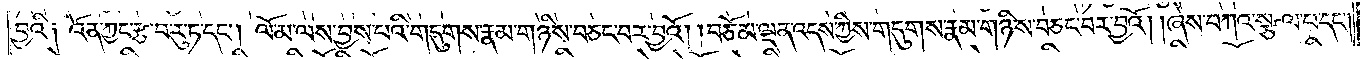བྱའི༑ འོན་ཀྱང་རྩ་བ་རུ་ཏ་དང༌། ལོ་མ་ལས་བྱས་པའི་གདུགས་རྣམ་གཉིས་བཅང་བར་བྱའོ། །བཅོམ་ལྡན་འདས་ཀྱིས་གདུགས་རྣམ་གཉིས་བཅང་བར་བྱའོ། །ཞེས་བཀའ་སྩལ་པ་དང༌།
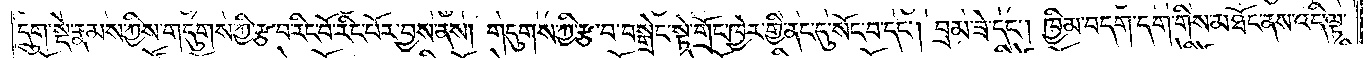དྲུག་སྡེ་རྣམས་ཀྱིས་གདུགས་ཀྱི་རྩ་བ་རིང་པོ་རིང་པོར་བྱས་ནས། གདུགས་ཀྱི་རྩ་བ་བསྒྲེང་སྟེ་གྲོང་ཁྱེར་གྱི་ནང་དུ་སོང་བ་དང༌། བྲམ་ཟེ་དང༌། ཁྱིམ་བདག་དག་གིས་མཐོང་ནས་འདི་ལྟ་
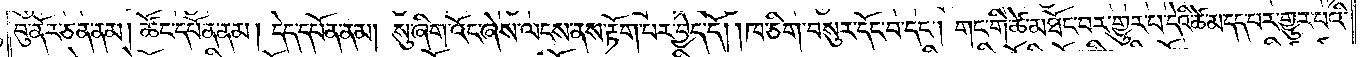བུ་ནོར་ཅན་ནམ། ཚོང་དཔོན་ནམ། དེད་དཔོན་ནམ། སུ་ཞིག་འོང་ཞེས་ལངས་ནས་རྟོག་པར་བྱེད་དོ། །ཁ་ཅིག་བསུར་དོང་བ་དང༌། གང་གི་ཚེ་མཐོང་བར་གྱུར་པ་དེའི་ཚེ་མ་དད་པར་གྱུར་པའི་
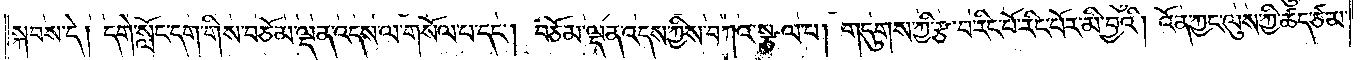སྐབས་དེ། དགེ་སློང་དག་གིས་བཅོམ་ལྡན་འདས་ལ་གསོལ་པ་དང༌། བཅོམ་ལྡན་འདས་ཀྱིས་བཀའ་སྩལ་པ། གདུགས་ཀྱི་རྩ་བ་རིང་པོ་རིང་པོར་མི་བྱའི། འོན་ཀྱང་ལུས་ཀྱི་ཚད་ཙམ་
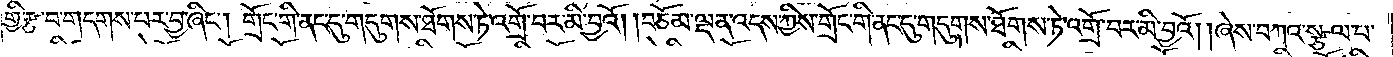གྱི་རྩ་བ་གདགས་པར་བྱ་ཞིང༌། གྲོང་གི་ནང་དུ་གདུགས་ཐོགས་ཏེ་འགྲོ་བར་མི་བྱའོ། །བཅོམ་ལྡན་འདས་ཀྱིས་གྲོང་གི་ནང་དུ་གདུགས་ཐོགས་ཏེ་འགྲོ་བར་མི་བྱའོ། །ཞེས་བཀའ་སྩལ་པ་
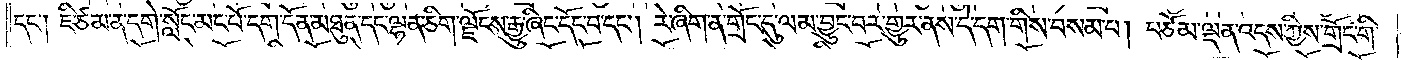དང༌། ཇི་ཙམ་ན་དགེ་སློང་མང་པོ་དག་དོན་མཐུན་དང་ལྷན་ཅིག་ལྗོངས་རྒྱུ་ཞིང་དོང་བ་དང༌། རེ་ཞིག་ན་གྲོང་དུ་ལམ་བྱུང་བར་གྱུར་ནས་དེ་དག་གིས་བསམ་པ། བཅོམ་ལྡན་འདས་ཀྱིས་གྲོང་གི་
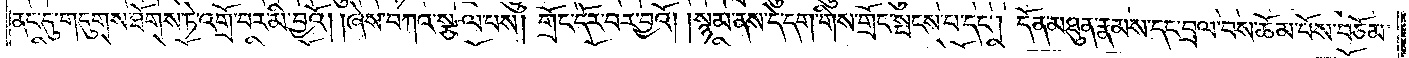ནང་དུ་གདུགས་ཐོགས་ཏེ་འགྲོ་བར་མི་བྱའོ། །ཞེས་བཀའ་སྩལ་པས། གྲོང་དོར་བར་བྱའོ། །སྙམ་ནས་དེ་དག་གིས་གྲོང་སྤངས་པ་དང༌། དོན་མཐུན་རྣམས་དང་བྲལ་བས་ཆོམ་བོས་བཅོམ་
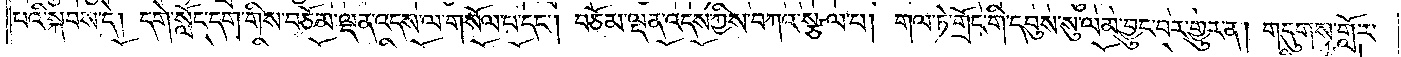པའི་སྐབས་དེ། དགེ་སློང་དག་གིས་བཅོམ་ལྡན་འདས་ལ་གསོལ་པ་དང༌། བཅོམ་ལྡན་འདས་ཀྱིས་བཀའ་སྩལ་པ། གལ་ཏེ་གྲོང་གི་དབུས་སུ་ལམ་བྱུང་བར་གྱུར་ན། གདུགས་གློར་
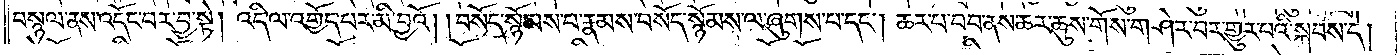བསྙལ་ནས་འདོང་བར་བྱ་སྟེ། འདི་ལ་འགྱོད་པར་མི་བྱའོ། །བསོད་སྙོམས་པ་རྣམས་བསོད་སྙོམས་ལ་ཞུགས་པ་དང༌། ཆར་པ་བབ་ནས་ཆར་ཆུས་གོས་གཤེར་བར་གྱུར་པའི་སྐབས་དེ།
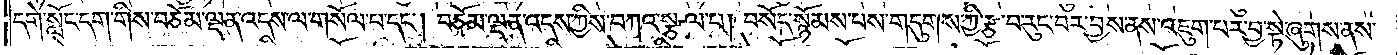དགེ་སློང་དག་གིས་བཅོམ་ལྡན་འདས་ལ་གསོལ་པ་དང༌། བཅོམ་ལྡན་འདས་ཀྱིས་བཀའ་སྩལ་པ། བསོད་སྙོམས་པས་གདུགས་ཀྱི་རྩ་བ་རུང་བར་བྱས་ནས་འཇུག་པར་བྱ་སྟེ་ཞུགས་ནས་
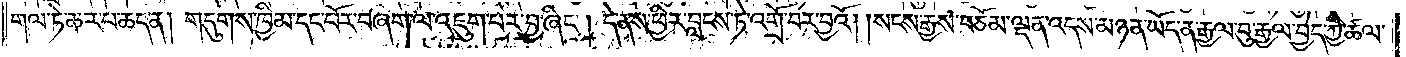གལ་ཏེ་ཆར་པ་ཆད་ན། གདུགས་ཁྱིམ་དང་པོར་བཞག་ལ་འཇུག་པར་བྱ་ཞིང༌། དེ་ནས་ཕྱིར་བླངས་ཏེ་འགྲོ་བར་བྱའོ། །སངས་རྒྱས་བཅོམ་ལྡན་འདས་མཉན་ཡོད་ན་རྒྱལ་བུ་རྒྱལ་བྱེད་ཀྱི་ཚལ་
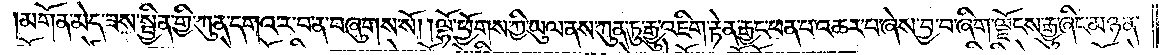།མགོན་མེད་ཟས་སྦྱིན་གྱི་ཀུན་དགའ་ར་བ་ན་བཞུགས་སོ། །ལྷོ་ཕྱོགས་ཀྱི་ཡུལ་ནས་ཀུན་ཏུ་རྒྱུ་འཇིག་རྟེན་རྒྱང་ཕན་པ་འཆར་པ་ཞེས་བྱ་བ་ཞིག་ལྗོངས་རྒྱུ་ཞིང་མཉན་
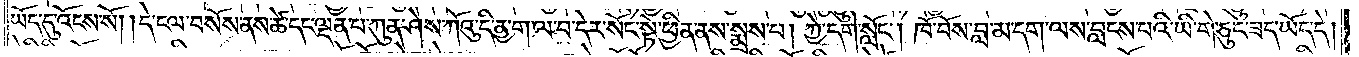ཡོད་དུ་འོངས་སོ། །དེ་ངལ་བསོས་ནས་ཚེ་དང་ལྡན་པ་ཀུན་ཤེས་ཀོའུ་དི་ནྱ་ག་ལ་པ་དེར་སོང་སྟེ་ཕྱིན་ནས་སྨྲས་པ། ཀྱེ་དགེ་སློང༌། ཁོ་བོས་བླ་མ་དག་ལས་བླངས་པའི་ཡི་གེ་ཅུང་ཟད་ཡོད་དེ།
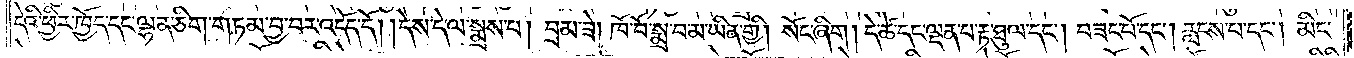དེའི་ཕྱིར་ཁྱོད་དང་ལྷན་ཅིག་གཏམ་བྱ་བར་འདོད་དོ། །དེས་དེ་ལ་སྨྲས་པ། བྲམ་ཟེ། ཁོ་བོ་སྨྲ་བ་མ་ཡིན་གྱི། སོང་ཞིག། དེ་ཚེ་དང་ལྡན་པ་རྟ་ཐུལ་དང༌། བཟང་པོ་དང༌། རླངས་པ་དང༌། མིང་
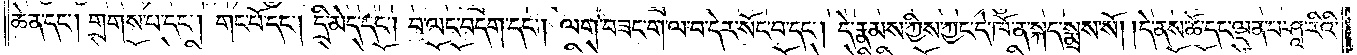ཆེན་དང༌། གྲགས་པ་དང༌། གང་པོ་དང༌། དྲི་མེད་དང༌། བ་ལང་བདག་དང༌། ལག་བཟང་ག་ལ་བ་དེར་སོང་བ་དང༌། དེ་རྣམས་ཀྱིས་ཀྱང་དེ་ཁོ་ན་སྐད་སྨྲས་སོ། །དེ་ནས་ཚེ་དང་ལྡན་པ་ཤཱ་རིའི་
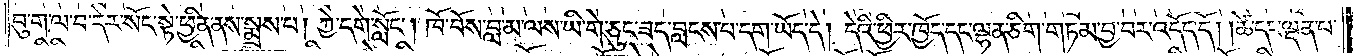བུ་ག་ལ་བ་དེར་སོང་སྟེ་ཕྱིན་ནས་སྨྲས་པ། ཀྱེ་དགེ་སློང༌། ཁོ་བོས་བླ་མ་ལས་ཡི་གེ་ཅུང་ཟད་བླངས་པ་དག་ཡོད་དེ། དེའི་ཕྱིར་ཁྱོད་དང་ལྷན་ཅིག་གཏམ་བྱ་བར་འདོད་དོ། །ཚེ་དང་ལྡན་པ་
